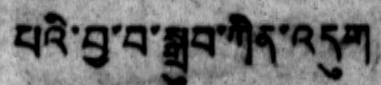པའི་བྱ་བ་སྒྲུབ་ཀིན་འདུག
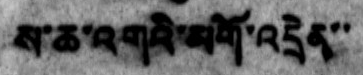ས་ཆ་འགའི་མགོ་འདྲེན་་
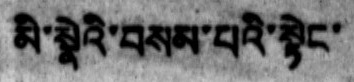མི་སྣེའི་བསམ་པའི་སྟེང་
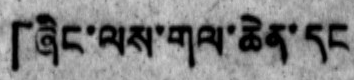「ཞིང་ལས་གལ་ཆེན་དང
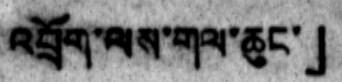འབྲོག་ལས་གལ་ཆུང་」
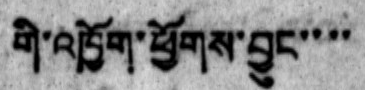གི་འཁྱོག་ཕྱོགས་བྱུང་་་་
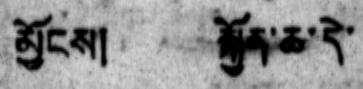མྱོངས། སྐྱོན་ཆ་དེ་
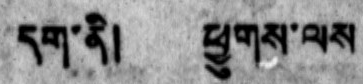དག་ནི།  ཕྱུགས་ལས
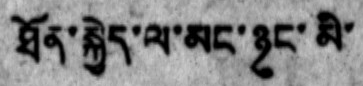ཐོན་སྐྱེད་ལ་མང་ཉུང་མི་
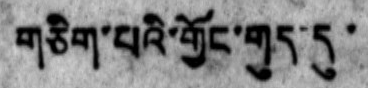གཅིག་པའི་གྱོང་གུད་དུ་
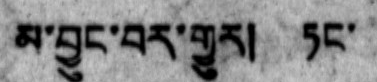མ་བྱུང་བར་གྱུར། ཏང་
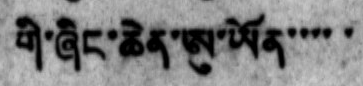གི་ཞིང་ཆེན་ཨུ་ཡོན་་་་་
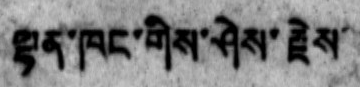ལྷན་ཁང་གིས་ཤེས་རྗེས་
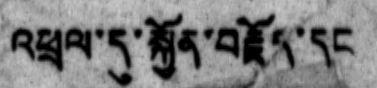འཕྲལ་དུ་སྐྱོན་བརྗོད་དང
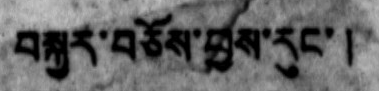བསྐྱར་བཅོས་ཕྱས་རུང་།
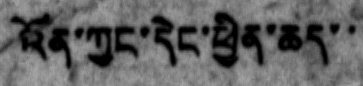འོན་ཀྱང་དེང་ཕྱིན་ཆད་་
